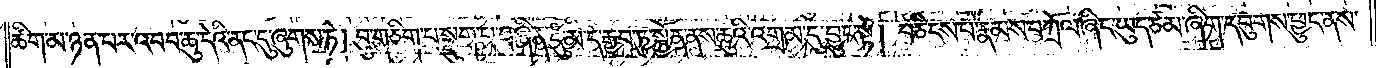ཚིག་མ་ཉན་པར་འབབ་ཆུ་དེའི་ནང་དུ་ཞུགས་ཏེ། བུ་གཅིག་པ་སྡུག་པ་བཞིན་དུ་མི་དེ་རྒྱབ་ཏུ་སྐྱོན་ནས་ཆུའི་འགྲམ་དུ་བྱུང་སྟེ། བཅིངས་པ་རྣམས་བཀྲོལ་ཞིང་ཡུད་ཙམ་ཞིག་དབུགས་ཕྱུང་ནས་
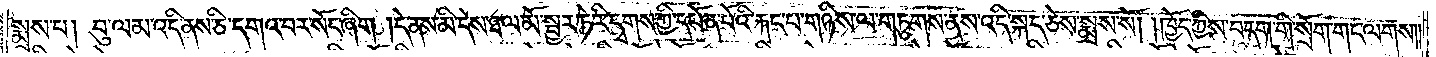སྨྲས་པ། བུ་ལམ་འདི་ནས་ཅི་དགའ་བར་སོང་ཞིག །དེ་ནས་མི་དེས་ཐལ་མོ་སྦྱར་ཏེ་རི་དྭགས་ཀྱི་དཔོན་པོའི་རྐང་པ་གཉིས་ལ་གཏུགས་ནས་འདི་སྐད་ཅེས་སྨྲས་སོ། །ཁྱོད་ཀྱིས་བདག་གི་སྲོག་གང་ལགས༎
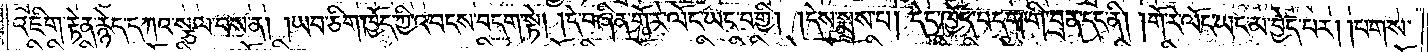འཇིག་རྟེན་རྙེད་དཀའ་སྩལ་བས་ན། །ཡབ་ཅིག་ཁྱོད་ཀྱི་འབངས་བདག་སྟེ། །དེ་བཞིན་གོ་རེ་ལོང་ཡང་བགྱི། །དེས་སྨྲས་པ། དེང་ཁྱོད་བདག་གི་བྲན་དང་ནི། །གོ་རེ་ལོང་ཡང་མ་བྱེད་པར། །པགས་
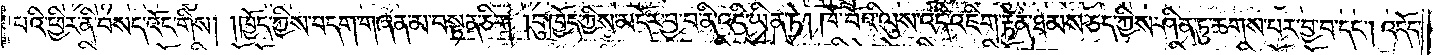པའི་ཕྱིར་ནི་བསད་འོང་གིས། །ཁྱོད་ཀྱིས་བདག་གཞན་མ་བསྟན་ཅིག །བུ་ཁྱོད་ཀྱིས་མདོར་བྱ་བ་ནི་འདི་ཡིན་ཏེ། ཁོ་བོའི་ལུས་འདི་འཇིག་རྟེན་ཐམས་ཅད་ཀྱིས་ཤིན་ཏུ་ཆགས་པར་བྱ་བ་དང༌། འདོད་
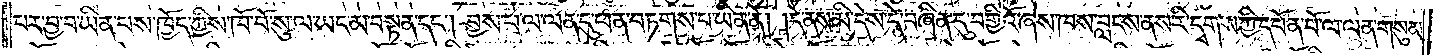པར་བྱ་བ་ཡིན་པས་ཁྱོད་ཀྱིས་ཁོ་བོ་སུ་ལ་ཡང་མ་བསྟན་དང༌། བྱས་པ་ལ་ལན་དུ་ཕན་བཏགས་པ་ཡིན་ནོ། །དེ་ནས་མི་དེས་དེ་བཞིན་དུ་བགྱིའོ་ཞེས་ཁས་བླངས་ནས་རི་དྭགས་ཀྱི་དཔོན་པོ་ལ་ལན་གསུམ་
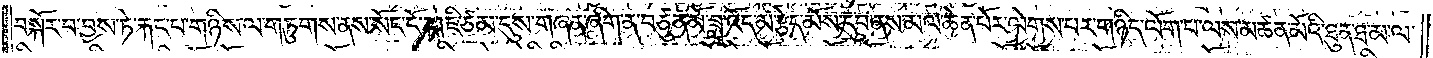བསྐོར་བ་བྱས་ཏེ་རྐང་པ་གཉིས་ལ་གཏུགས་ནས་སོང་ངོ༌། །ཇི་ཙམ་དུས་གཞན་ཞིག་ན་བཙུན་མོ་ཟླ་འོད་མ་རྩེད་མོས་དུབ་ནས་མལ་ཆེན་པོར་ལེགས་པར་གཉིད་ལོག་པ་ལས་མཚན་མོའི་ཐུན་ཐ་མ་ལ་
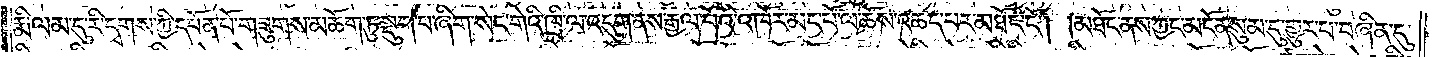རྨི་ལམ་དུ་རི་དྭགས་ཀྱི་དཔོན་པོ་གཟུགས་མཆོག་ཏུ་སྡུག་པ་ཞིག་སེང་གེའི་ཁྲི་ལ་འདུག་ནས་རྒྱལ་པོའི་འཁོར་མང་པོ་ལ་ཆོས་འཆད་པར་མཐོང་ངོ༌། །མཐོང་ནས་ཀྱང་མངོན་སུམ་དུ་གྱུར་པ་བཞིན་དུ་
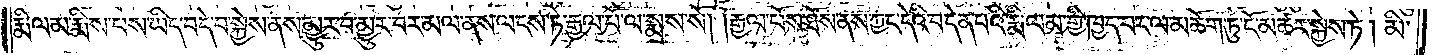རྨི་ལམ་རྨིས་པས་ཡིད་བདེ་བ་སྐྱེས་ནས་མྱུར་བ་མྱུར་བར་མལ་ནས་ལངས་ཏེ་རྒྱལ་པོ་ལ་སྨྲས་སོ། །རྒྱལ་པོས་ཐོས་ནས་ཀྱང་དེའི་བདེན་པའི་རྨི་ལམ་གྱི་ཁྱད་པར་ལ་མཆོག་ཏུ་ངོ་མཚར་སྐྱེས་ཏེ། མི་
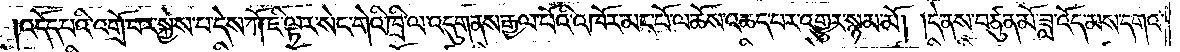འདོད་པའི་འགྲོ་བར་སྐྱེས་པ་དེས་ཀོ་ཇི་ལྟར་སེང་གེའི་ཁྲི་ལ་འདུག་ནས་རྒྱལ་པོའི་འཁོར་མང་པོ་ལ་ཆོས་འཆད་པར་འགྱུར་སྙམ་མོ། །དེ་ནས་བཙུན་མོ་ཟླ་འོད་མས་དགའ་
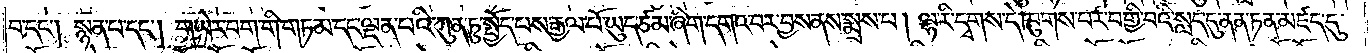བ་དང༌། སྙམ་པ་དང༌། གཡེར་བག་གི་གཏམ་དང་ལྡན་པའི་ཀུན་ཏུ་སྤྱོད་པས་རྒྱལ་པོ་ཡུད་ཙམ་ཞིག་དགའ་བར་བྱས་ནས་སྨྲས་པ། ལྷ་རི་དྭགས་དེ་ཁུགས་པར་བགྱི་བའི་སླད་དུ་ནན་ཏན་མཛད་དུ་
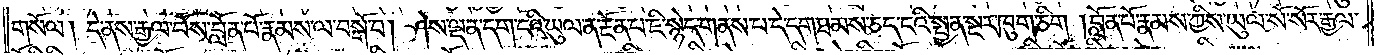གསོལ། དེ་ནས་རྒྱལ་པོས་བློན་པོ་རྣམས་ལ་བསྒོ་བ། ཤེས་ལྡན་དག་ངའི་ཡུལ་ན་རྔོན་པ་ཇི་སྙེད་གནས་པ་དེ་དག་ཐམས་ཅད་ངའི་སྤྱན་སྔར་ཁུག་ཅིག །བློན་པོ་རྣམས་ཀྱིས་ཡུལ་སོ་སོར་རྒྱལ་
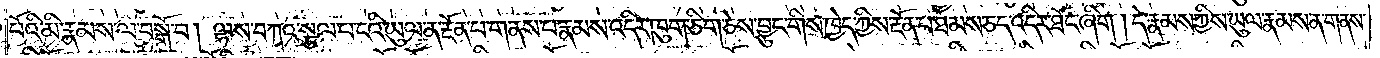པོའི་མི་རྣམས་ལ་བསྒོ་བ། ལྷས་བཀའ་སྩལ་པ་ངའི་ཡུལ་ན་རྔོན་པ་གནས་པ་རྣམས་འདིར་ཁུག་ཅིག་ཅེས་བྱུང་གིས་ཁྱེད་ཀྱིས་རྔོན་པ་ཐམས་ཅད་འདིར་ཐོང་ཞིག །དེ་རྣམས་ཀྱིས་ཡུལ་རྣམས་ན་གནས་
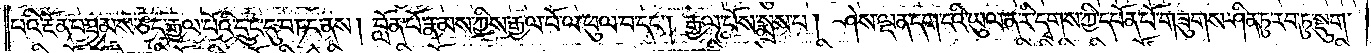པའི་རྔོན་པ་ཐམས་ཅད་རྒྱལ་པོའི་དྲུང་དུ་བཏང་ནས། བློན་པོ་རྣམས་ཀྱིས་རྒྱལ་པོ་ལ་ཕུལ་བ་དང༌། རྒྱལ་པོས་སྨྲས་པ། ཤེས་ལྡན་དག་ངའི་ཡུལ་ན་རི་དྭགས་ཀྱི་དཔོན་པོ་གཟུགས་ཤིན་ཏུ་རབ་ཏུ་སྡུག་
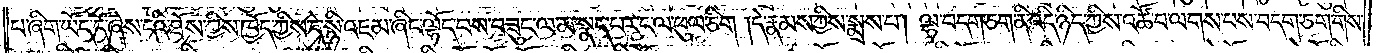པ་ཞིག་ཡོད་དོ་ཞེས་ངའི་ཐོས་ཀྱིས་ཁྱོད་ཀྱིས་དེ་སྙི་འཇམ་ཞིང་ལྷོད་བས་བཟུང་ལ་མ་སྣད་པར་ང་ལ་ཕུལ་ཅིག །དེ་རྣམས་ཀྱིས་སྨྲས་པ། ལྷ་བདག་ཅག་ནི་འདི་ཉིད་ཀྱིས་འཚོ་བ་ལགས་པས་བདག་ཅག་གིས་
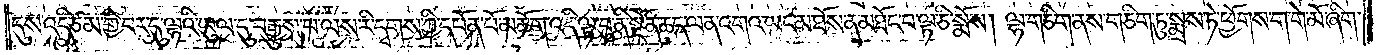དུས་འདི་ཙམ་གྱི་བར་དུ་ལྷའི་ཡུལ་དུ་བརྒྱུས་པ་ལས་རི་དྭགས་ཀྱི་དཔོན་པོ་མཆོག་འདི་ལྟ་བུ་ནི་སྔོན་ཆད་ལན་འགའ་ཡང་མ་ཐོས་ན་མཐོང་བ་ལྟ་ཅི་སྨོས། ལྷ་གཅིག་ནས་གཅིག་ཏུ་སྨྲས་ཏེ་ཕྱོགས་ག་གེ་མོ་ཞིག་
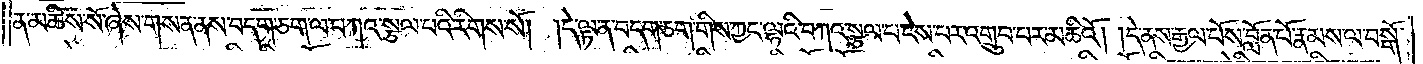ན་མཆིས་སོ་ཞེས་གསན་ནས་བདག་ཅག་ལ་བཀའ་སྩལ་པའི་རིགས་སོ། །དེ་ལྟ་ན་བདག་ཅག་གིས་ཀྱང་ལྷའི་བཀའ་སྩལ་པ་ངེས་པར་འགྲུབ་པར་མཆིའོ། །དེ་ནས་རྒྱལ་པོས་བློན་པོ་རྣམས་ལ་བསྒོ་
